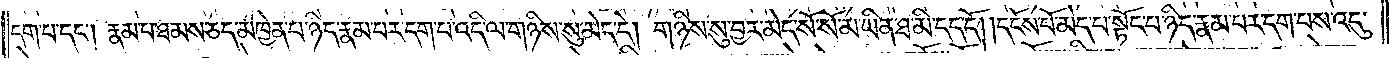དག་པ་དང༌། རྣམ་པ་ཐམས་ཅད་མཁྱེན་པ་ཉིད་རྣམ་པར་དག་པ་འདི་ལ་གཉིས་སུ་མེད་དེ། གཉིས་སུ་བྱར་མེད་སོ་སོ་མ་ཡིན་ཐ་མི་དད་དོ། །དངོས་པོ་མེད་པ་སྟོང་པ་ཉིད་རྣམ་པར་དག་པས་འདུ་
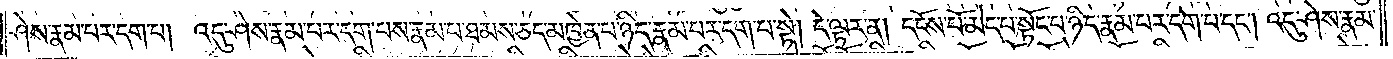ཤེས་རྣམ་པར་དག་པ། འདུ་ཤེས་རྣམ་པར་དག་པས་རྣམ་པ་ཐམས་ཅད་མཁྱེན་པ་ཉིད་རྣམ་པར་དག་པ་སྟེ། དེ་ལྟར་ན། དངོས་པོ་མེད་པ་སྟོང་པ་ཉིད་རྣམ་པར་དག་པ་དང༌། འདུ་ཤེས་རྣམ་
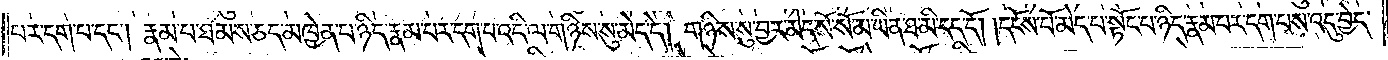པར་དག་པ་དང༌། རྣམ་པ་ཐམས་ཅད་མཁྱེན་པ་ཉིད་རྣམ་པར་དག་པ་འདི་ལ་གཉིས་སུ་མེད་དེ། གཉིས་སུ་བྱར་མེད་སོ་སོ་མ་ཡིན་ཐ་མི་དད་དོ། །དངོས་པོ་མེད་པ་སྟོང་པ་ཉིད་རྣམ་པར་དག་པས་འདུ་བྱེད་
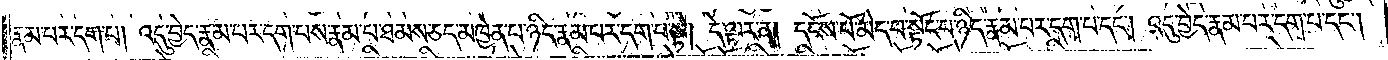རྣམ་པར་དག་པ། འདུ་བྱེད་རྣམ་པར་དག་པས་རྣམ་པ་ཐམས་ཅད་མཁྱེན་པ་ཉིད་རྣམ་པར་དག་པ་སྟེ། དེ་ལྟར་ན། དངོས་པོ་མེད་པ་སྟོང་པ་ཉིད་རྣམ་པར་དག་པ་དང༌། འདུ་བྱེད་རྣམ་པར་དག་པ་དང༌།
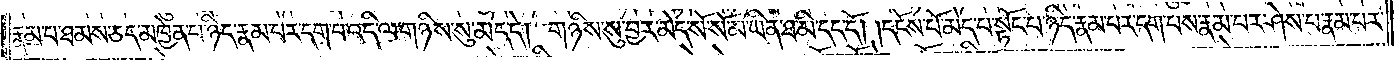རྣམ་པ་ཐམས་ཅད་མཁྱེན་པ་ཉིད་རྣམ་པར་དག་པ་འདི་ལ་གཉིས་སུ་མེད་དེ། གཉིས་སུ་བྱར་མེད་སོ་སོ་མ་ཡིན་ཐ་མི་དད་དོ། །དངོས་པོ་མེད་པ་སྟོང་པ་ཉིད་རྣམ་པར་དག་པས་རྣམ་པར་ཤེས་པ་རྣམ་པར་
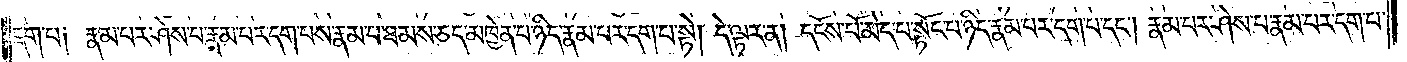དག་པ། རྣམ་པར་ཤེས་པ་རྣམ་པར་དག་པས་རྣམ་པ་ཐམས་ཅད་མཁྱེན་པ་ཉིད་རྣམ་པར་དག་པ་སྟེ། དེ་ལྟར་ན། དངོས་པོ་མེད་པ་སྟོང་པ་ཉིད་རྣམ་པར་དག་པ་དང༌། རྣམ་པར་ཤེས་པ་རྣམ་པར་དག་པ་
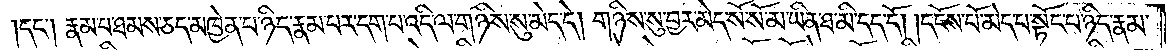དང༌། རྣམ་པ་ཐམས་ཅད་མཁྱེན་པ་ཉིད་རྣམ་པར་དག་པ་འདི་ལ་གཉིས་སུ་མེད་དེ། གཉིས་སུ་བྱར་མེད་སོ་སོ་མ་ཡིན་ཐ་མི་དད་དོ། །དངོས་པོ་མེད་པ་སྟོང་པ་ཉིད་རྣམ་
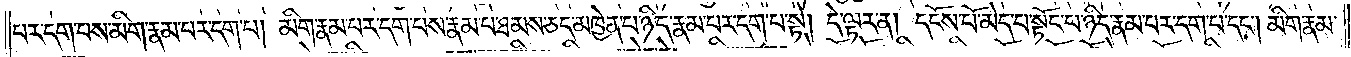པར་དག་པས་མིག་རྣམ་པར་དག་པ། མིག་རྣམ་པར་དག་པས་རྣམ་པ་ཐམས་ཅད་མཁྱེན་པ་ཉིད་རྣམ་པར་དག་པ་སྟེ། དེ་ལྟར་ན། དངོས་པོ་མེད་པ་སྟོང་པ་ཉིད་རྣམ་པར་དག་པ་དང༌། མིག་རྣམ་
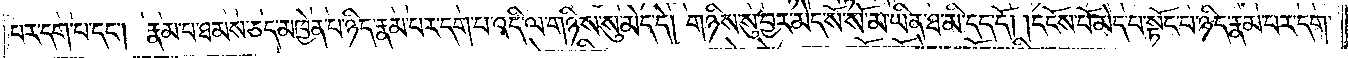པར་དག་པ་དང༌། རྣམ་པ་ཐམས་ཅད་མཁྱེན་པ་ཉིད་རྣམ་པར་དག་པ་འདི་ལ་གཉིས་སུ་མེད་དེ། གཉིས་སུ་བྱར་མེད་སོ་སོ་མ་ཡིན་ཐ་མི་དད་དོ། །དངོས་པོ་མེད་པ་སྟོང་པ་ཉིད་རྣམ་པར་དག་
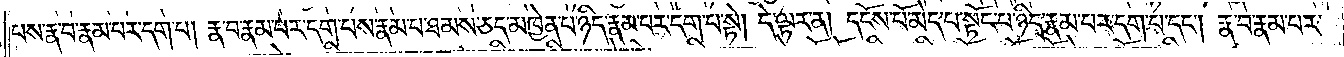པས་རྣ་བ་རྣམ་པར་དག་པ། རྣ་བ་རྣམ་པར་དག་པས་རྣམ་པ་ཐམས་ཅད་མཁྱེན་པ་ཉིད་རྣམ་པར་དག་པ་སྟེ། དེ་ལྟར་ན། དངོས་པོ་མེད་པ་སྟོང་པ་ཉིད་རྣམ་པར་དག་པ་དང༌། རྣ་བ་རྣམ་པར་
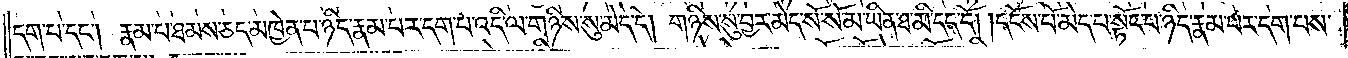དག་པ་དང༌། རྣམ་པ་ཐམས་ཅད་མཁྱེན་པ་ཉིད་རྣམ་པར་དག་པ་འདི་ལ་གཉིས་སུ་མེད་དེ། གཉིས་སུ་བྱར་མེད་སོ་སོ་མ་ཡིན་ཐ་མི་དད་དོ། །དངོས་པོ་མེད་པ་སྟོང་པ་ཉིད་རྣམ་པར་དག་པས་
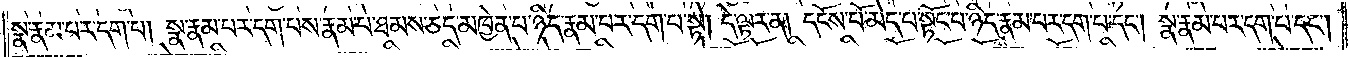སྣ་རྣམ་པར་དག་པ། སྣ་རྣམ་པར་དག་པས་རྣམ་པ་ཐམས་ཅད་མཁྱེན་པ་ཉིད་རྣམ་པར་དག་པ་སྟེ། དེ་ལྟར་ན། དངོས་པོ་མེད་པ་སྟོང་པ་ཉིད་རྣམ་པར་དག་པ་དང༌། སྣ་རྣམ་པར་དག་པ་དང༌།
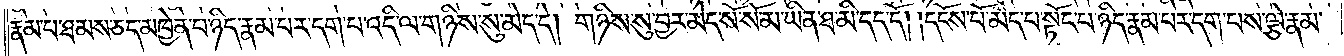རྣམ་པ་ཐམས་ཅད་མཁྱེན་པ་ཉིད་རྣམ་པར་དག་པ་འདི་ལ་གཉིས་སུ་མེད་དེ། གཉིས་སུ་བྱར་མེད་སོ་སོ་མ་ཡིན་ཐ་མི་དད་དོ། །དངོས་པོ་མེད་པ་སྟོང་པ་ཉིད་རྣམ་པར་དག་པས་ལྕེ་རྣམ་
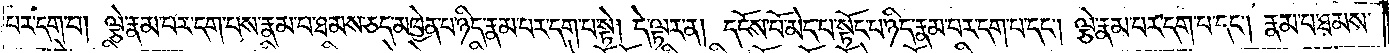པར་དག་པ། ལྕེ་རྣམ་པར་དག་པས་རྣམ་པ་ཐམས་ཅད་མཁྱེན་པ་ཉིད་རྣམ་པར་དག་པ་སྟེ། དེ་ལྟར་ན། དངོས་པོ་མེད་པ་སྟོང་པ་ཉིད་རྣམ་པར་དག་པ་དང༌། ལྕེ་རྣམ་པར་དག་པ་དང༌། རྣམ་པ་ཐམས་
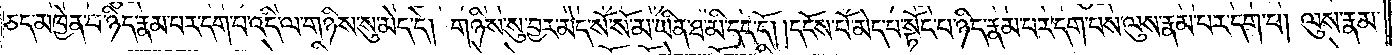ཅད་མཁྱེན་པ་ཉིད་རྣམ་པར་དག་པ་འདི་ལ་གཉིས་སུ་མེད་དེ། གཉིས་སུ་བྱར་མེད་སོ་སོ་མ་ཡིན་ཐ་མི་དད་དོ། །དངོས་པོ་མེད་པ་སྟོང་པ་ཉིད་རྣམ་པར་དག་པས་ལུས་རྣམ་པར་དག་པ། ལུས་རྣམ་
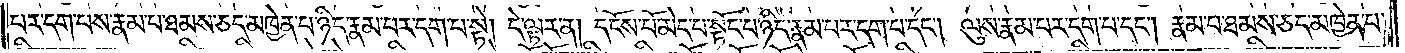པར་དག་པས་རྣམ་པ་ཐམས་ཅད་མཁྱེན་པ་ཉིད་རྣམ་པར་དག་པ་སྟེ། དེ་ལྟར་ན། དངོས་པོ་མེད་པ་སྟོང་པ་ཉིད་རྣམ་པར་དག་པ་དང༌། ལུས་རྣམ་པར་དག་པ་དང༌། རྣམ་པ་ཐམས་ཅད་མཁྱེན་པ་
